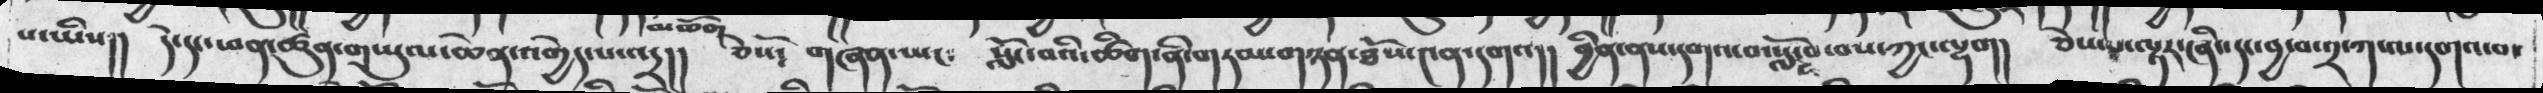པ་ཡིས།།  དེ་དང་ཕན་ཚུན་གཡུལ་ཆེན་འགྱེད་པ་འདྲ།།  ཅེསོ༴  གཞན་ཡང༴  སློང་བའི་ཚིག་ནི་གཏམ་གཉན་ཐོས་༤ན་དགའ།།  བྱིན་ནས་དགའ་བ་སློང་བ་བས་ཀྱང་ལྷག།    ཅེས་པ་ལྟར་ཞིང་དང་བྱ་བ་༢་ཀ་ལ་དགའ་བ་
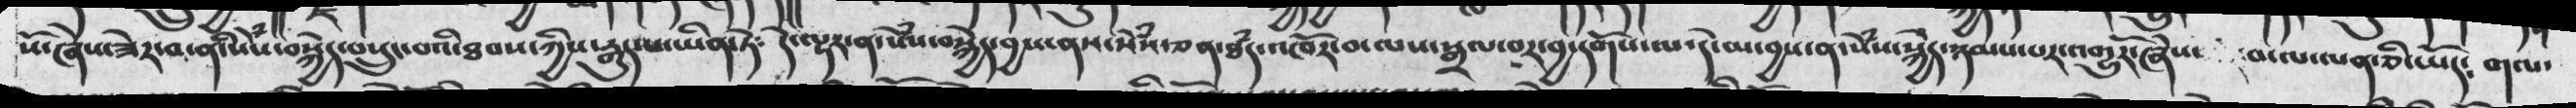སོ་ཞེས་ཟེར་བ་ནི་སེཾས་བསྐྱེད་བསྲུང་བའི་ཐབས་ཀྱིས་རྒུད་པ་ཡིན་ཏེ༴  དེ་ལྟར་སེཾས་བསྐྱེད་བྱས་ནས་སེཾས་ཅན་ཐཾད་འཁོར་བ་ལས་སྒྲལ་བར་བྱ་དགོས་ལ་དེ་མ་བྱས་ན་སེཾས་སྐྱེད་ཉམས་པར་འགྱུརོ་ཞེས  བ་ལ་ལན་ཅི་ཡོད༴  གལ་
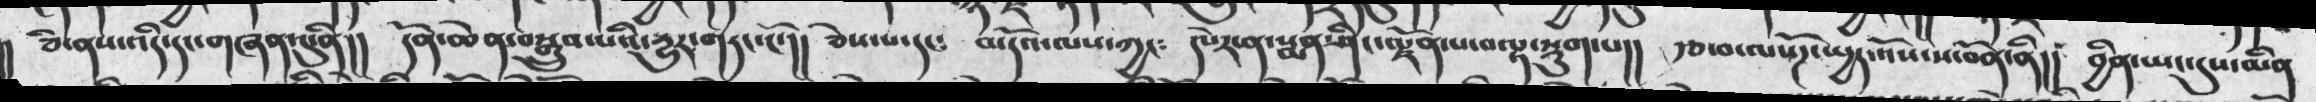ཅི་ནས་འདི་དང་གཞན་སུ་ནི།།  དོན་ཆེན་བསྒྲུབ་པའི་ཀྱུར་གཏང་ངོ་།།  ཅེས་པ་དང༴  མདོའ་ལས་ཀྱང༴  དཔེར་ན་སྨན་ཤིང་ལྗོན་པ་བལྟ་སྡུག་པ།།   རྩ་བ་ལསོཌ་སྤྱད་འོས་ས་བོན་ནི།།  བྱིན་ཡང་དུས་མིན
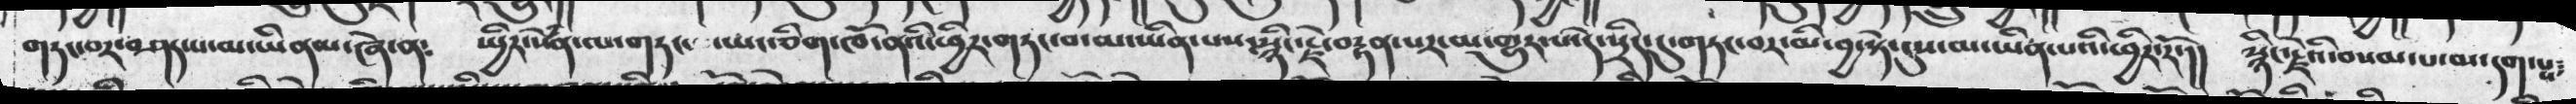གཏང་བར་བཤད་པ་མ་ཡིན་ནམ་ཞེ་ན༴  ཡྱིར་སེཾན་ལ་གཏང་བ་ཡང་ཅིག་ཁོ་ནའི་ཕྱིར་གཏང་བ་མ་ཡིན་པས་སྙིང་རྗེ་བརྟན་པར་མ་གྱུར་པ་དེ་སྲིད་དུ་གཏང་བར་མི་བྱ་སྟེ་དུས་མ་ཡིན་པའི་ཕྱིར་རོ་།།  སྙིང་རྗེའི་བསམ་པ་མ་དག་པས་
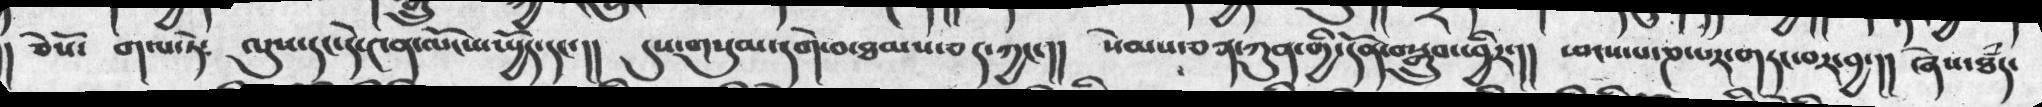ཅེསོ་   གལ་ཏེ༴  ལུས་དང་དེ་༤ན་ལོངས་ཡྱོད་དང་།།  དུས་གསུམ་དགེ་བ་ཐམས་ཅད་ཀྱང་།།    སེམས་ཅན་ཀུན་གྱི་དོན་བསྒྲུབ་ཕྱིར་།།   ཕངས་པ་ཎ་པར་གཏང་བར་བྱ་།། ཞེས་ཐཾད་
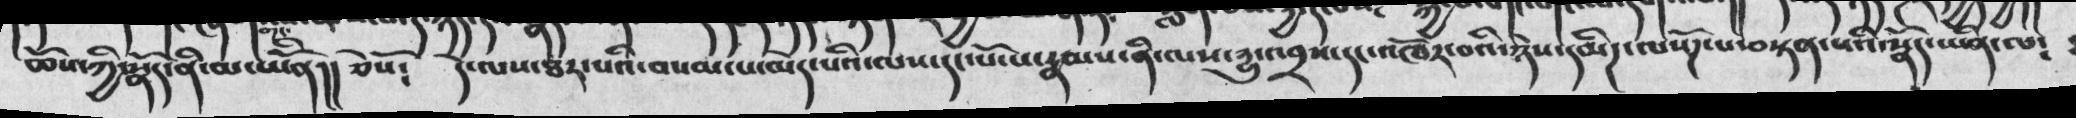ཆོས་ཀྱི་སྣོད་ནི་མ་ཡིན།།  ཅེསོ༴  དེ་ལས་ཐར་པའི་བསམ་པ་མེད་པའི་ལས་དང་པོ་པ་རྣམས་ནི་ལས་དྱུ་འབྲས་དང་འཁོར་བའི་ཉེས་དམིགས་ལསོཌ་པ་བསྟན་པའི་སྣོད་ཡིན་ལ༴
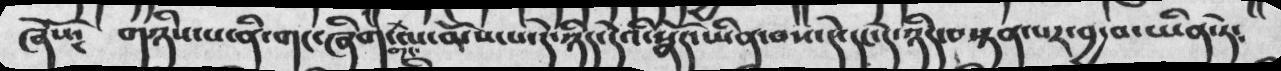ཞེསོ༴  གཉིས་པ་ནི་གང་ཞིག་གང་ལ་མོས་པ་དེ་ཉིད་དེའི་སྣོད་ཡིན་བས་དེ་དང་དེ་ཉིད་བསྟན་པར་བྱ་བ་ཡིན་ཏེ༴
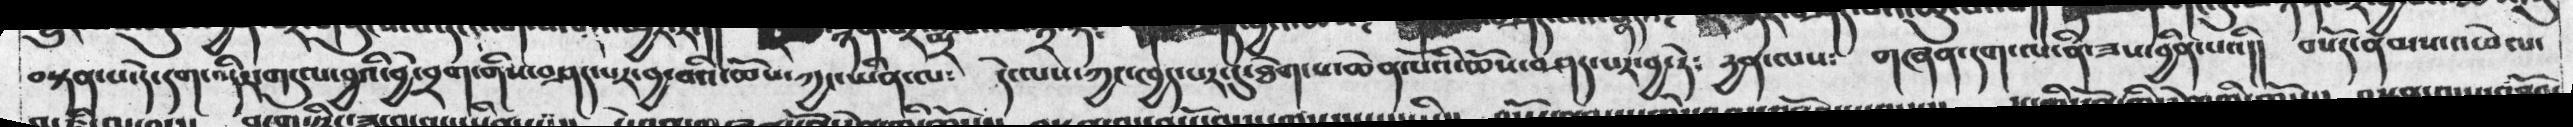བསྟན་པ་དེ་དག་འདིར་གདུལ་བྱའི་བྱེ་བྲག་གིས་བཤད་པར་བྱ་བའི་ཆོས་ཀྱང་ཡིན་ལ༴  དེ་ལས་ཀྱང་ཁྱད་པར་དུ་ཐེག་པ་ཆེན་པའོི་ཆོས་བཤད་པར་བྱ་ཏེ༴   རྱན་ལས༴    གཞན་དག་ལ་ནི་ཟས་བྱིན་པའི།།  བསོད་ནམས་འཕེལ་
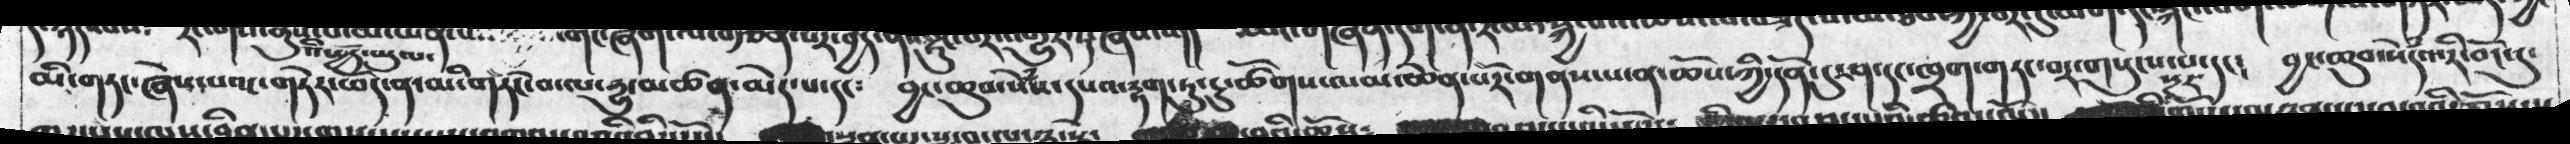མི་གཏང་ཞེས་པའང་གཏེར་ཕོད་ན་མི་གཏོང་བ་ལ་དྱུ་མཚན་མེད་པ་དང༴  བྱང་ཆུབ་སེཾས་དཔའ་རྟག་ཏུ་ངུ་ཚོགས་ལམ་ཆེན་པོར་གནས་པ་ན་ཆོས་ཀྱི་དོན་དུ་ཤ་དང་ཁྲག་གཏང་བར་གསུངས་པ་དང༴  བྱང་ཆུབ་སེདཾའ་རི་བོང་དུ་
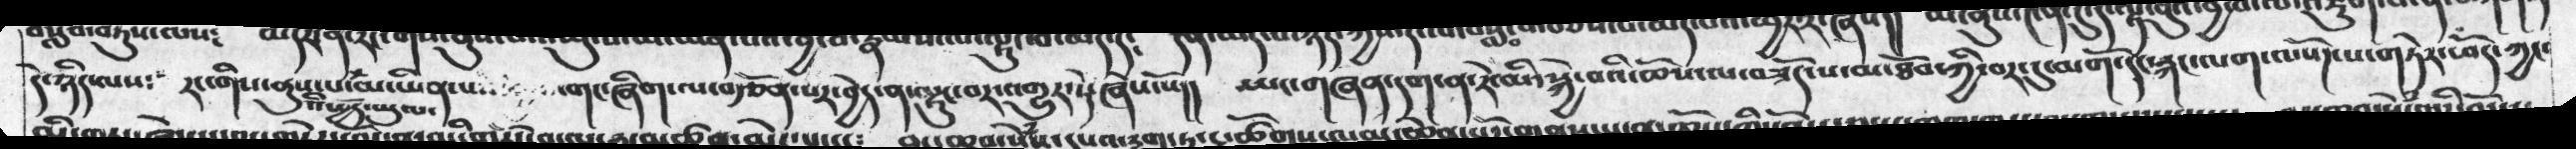དེ་ཉིད་ལས༴  རང་གིས་ནུས་པའི་སྤྱོད་ཡུལ་མ་ཡིན་པ  གང་ཞིག་ལ་བརྩོན་པར་བྱེད་ན་ལྷུང་བར་འགྱུར་དེ་ཞེས་སོ།།   ཡང་གཞན་དག་ན་རེ་མི་སྐྱེ་བའི་ཆོས་ལ་བཟོད་པ་མ་ཐོབ་ཀྱི་བར་དུ་མགོ་དང་རྐང་ལག་ལ་སོཌ་པ་གཏེར་ཕོད་ཀྱང་
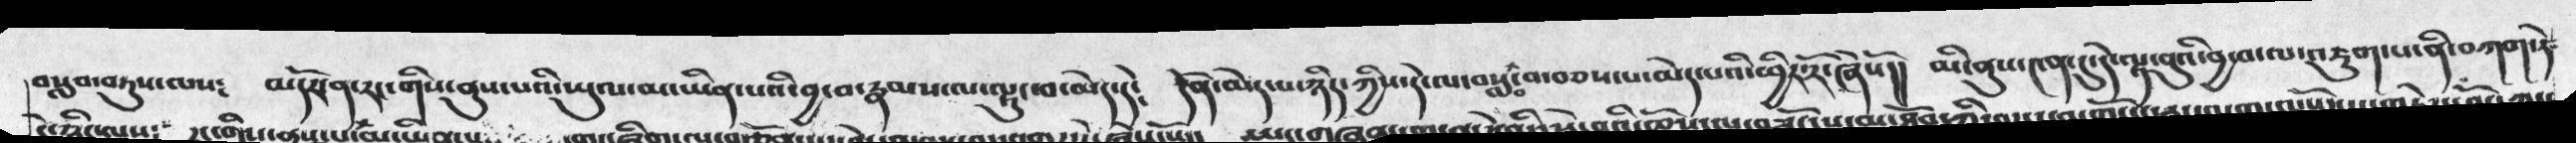།བསླབ་བཏུས་ལས༴  མདོར་ན་རང་གིས་ནུས་པའི་ཡུལ་མ་ཡིན་པའི་བྱ་བ་རྣམས་ལ་ལྟུང་བ་མེད་དེ༴   དོན་མེད་པ་ཉིད་ཀྱིས་དེ་ལ་བསླབ་བ་བཅས་པ་མེད་པའི་ཕྱིར་རོ་ཞེསོ།།  མི་ནུས་༤ན་དུ་དེ་ལྟ་བུའི་བྱ་བ་ལ་འཇུག་པ་ནི་བཀག་ཏེ་
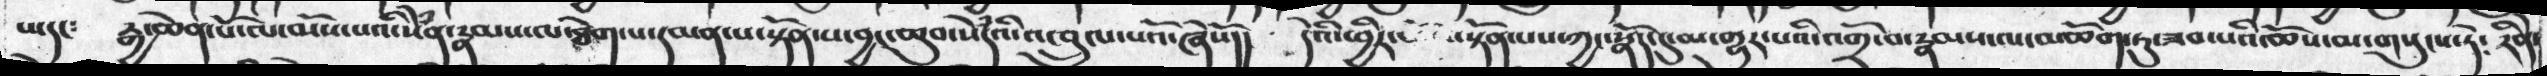ཡདང༴   རྒྱ་ཆེན་པོ་ལ་མོས་པའི་སེཾན་རྣམས་ལ་ཐེག་པ་དམན་པ་སྟོན་པ་བྱང་ཆུབ་སེཾདའི་འཁྲུལ་པའོ་ཞེསོ།།  དེའི་ཕྱིར་ཆོས་བསྟོན་པས་ཀྱང་སྣོད་དུ་མ་གྱུར་པའི་འགྲོ་བ་རྣམས་ལ་མཆོག་ཏུ་ཟབ་པའི་ཆོས་མ་གསུངས་ཏེ༴  རིནེ་
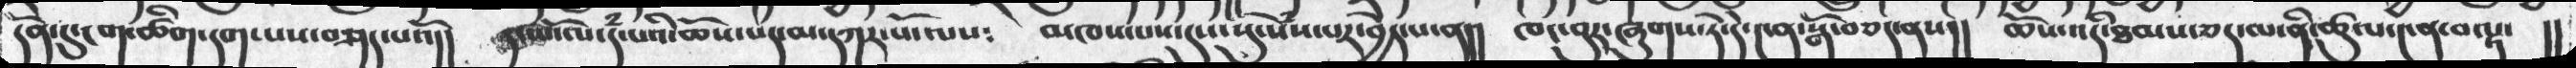དོན་དུ་ག་ཚིག་དག་པས་བཤད་པའོ།།  དང་པོ་ལ་དཾ་པའི་ཆོས་པད་མ་དཀར་པོ་ལས༴   མཁས་པས་དུས་སུ་སེཾས་པར་བྱེད་པ་ན།།  ཁང་བུར་ཞུགས་ཏེ་༤ན་སྒོ་བཅད་ནས།།  ཆོས་འདི་ཐམས་ཅད་ལ་ནི་ཚུལ་༤ན་བལྟ་   །།
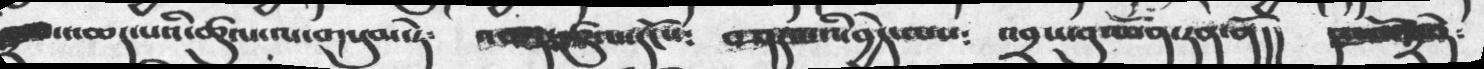༢་པ་འཆད་པའི་ཚུལ་ལ་གསུམ་ཏེ་    འཆད་ཚུལ་དངོས༴   བཤད་པའི་བྱེད་ལས༴  འབྲས་བུ་ཡོན་ཏན་ནོ།།  དང་པོ་༣་ཏེ༴
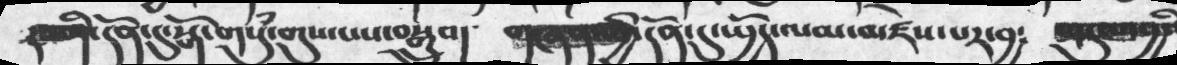རང་གི་དོན་དུ་སྒོ་གསུམ་གུས་པས་བསྒྲུབ།   གཞན་གྱི་དོན་དུ་ཡྱོད་ལམ་མཛེས་པར་བྱ༴  གདུལ་བྱའི་
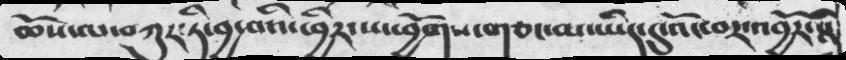ཆོས་ལ་བཀུར་ཏི་བྱ་བའི་ཕྱིར་ས་ཕྱོགས་གཅང་མ་ཡིད་དུ་འོང་བར་འབྱོར་པའི
